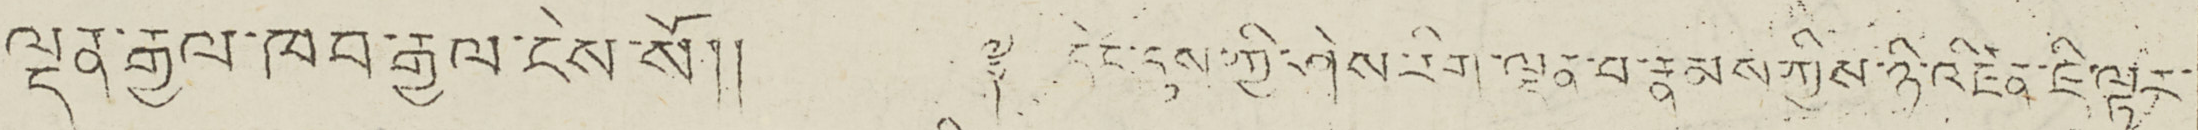ལྡན་རྒྱལ་ཁབ་ངེས་སོ།། ༈ དེང་དུས་ཀྱི་ཤེས་རིག་ལྡན་པ་རྣམས་ཀྱིས་ཉི་འཛིན་ཇི་ལྟར་
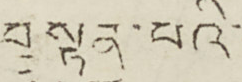བསྟན་པའི་
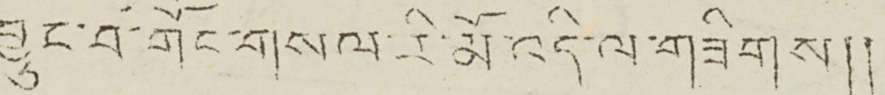བྱུང་བ་གོང་གསལ་རི་མོ་འདི་ལ་གཟིགས།།
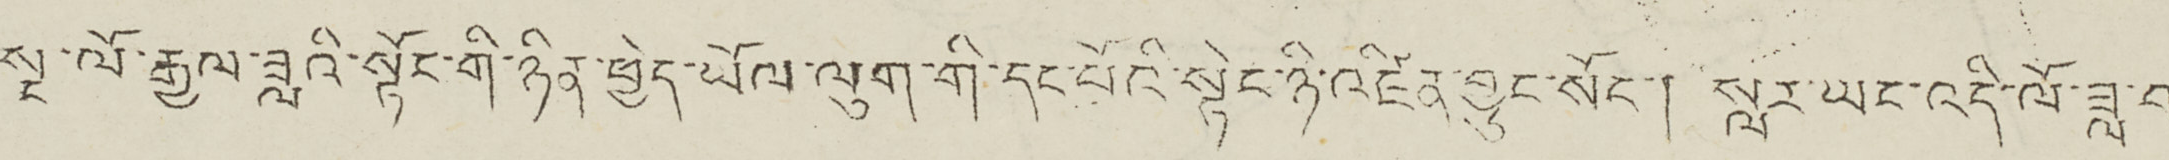སྔ་ལོ་རྒྱལ་ཟླའི་སྟོང་གི་ཉིན་ཕྱེད་ཡོལ་ལུག་གི་དང་པོའི་སྟེང་ཉི་འཛིན་བྱུང་སོང་། སླར་ཡང་འདི་ལོ་ཟླ་བ་
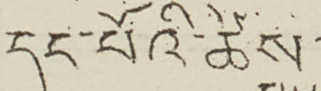དང་པོའི་ཚེས་
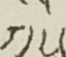༡༥
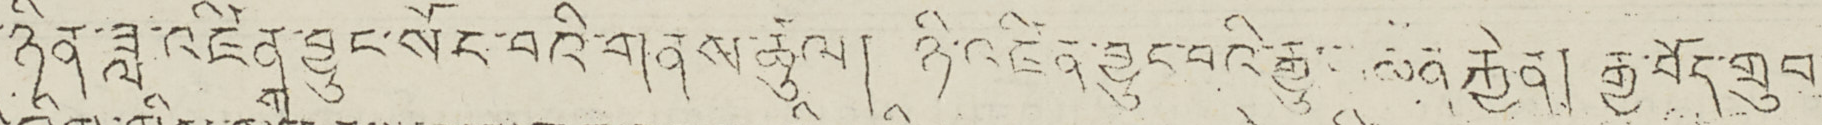ཉིན་ཟླ་འཛིན་བྱུང་སོང་བའི་གནས་ཚུལ། ཉི་འཛིན་བྱུང་བའི་རྒྱུ་མཚན་རྐྱེན། རྒྱ་བོད་གྲུབ་
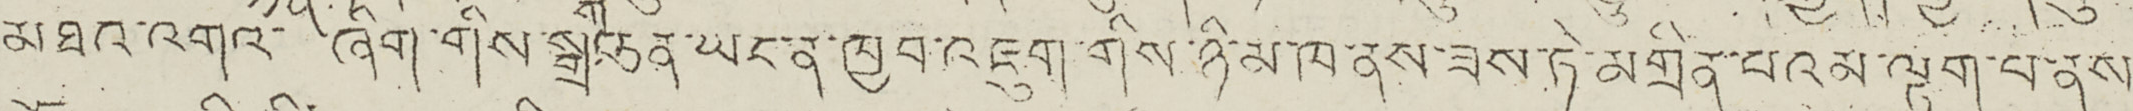མཐའ་འགའ་ ཞིག་གིས་སྒྲག་ཅན་ཡང་ནས་ཁྱབ་འཇུག་གིས་ཉི་མ་ཁ་ནས་ཟས་ཏེ་མགྲིན་པའམ་ལྟག་པ་ནས་
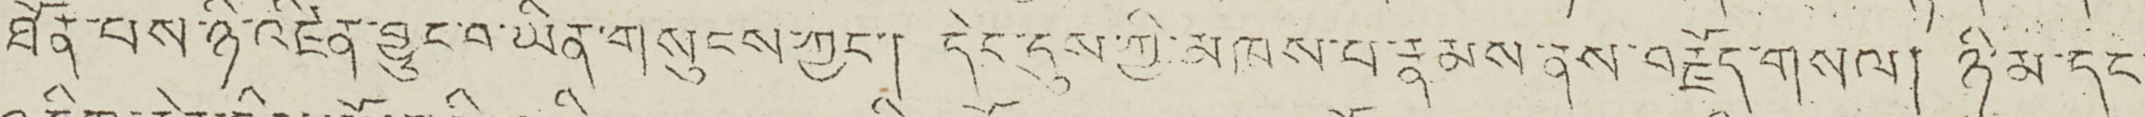ཐོན་པས་ཉི་འཛིན་བྱུང་བ་ཡིན་གསུངས་ཀྱང་། དེང་དུས་ཀྱི་མཁས་པ་རྣམས་ནས་བརྗོད་གསལ། ཉི་མ་དང་
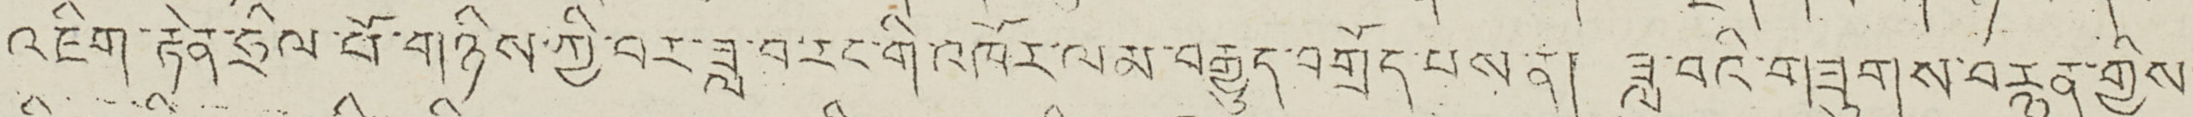འཇིག་རྟེན་ཧྲིལ་པོ་གཉིས་ཀྱི་བར་ཟླ་བ་རང་གི་འཁོར་ལམ་བརྒྱུད་བགྲོད་པས་ན། ཟླ་བའི་གཟུགས་བརྙན་གྱིས་
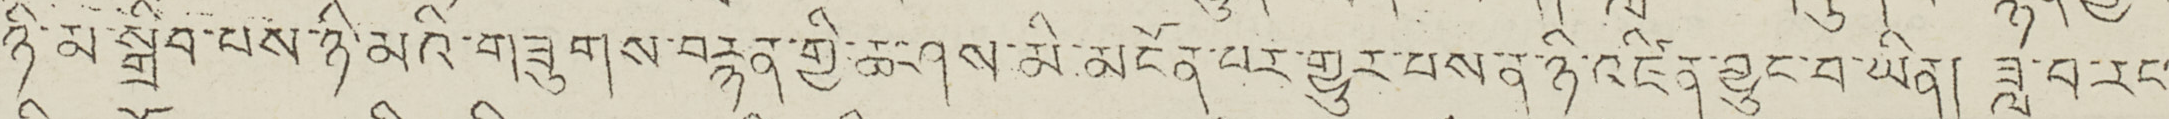ཉི་མ་སྒྲིབ་པས་ཉི་མའི་གཟུགས་བརྙན་གྱི་ཆ་ཤས་མི་མངོན་པར་གྱུར་པས་ན་ཉི་འཛིན་བྱུང་བ་ཡིན། ཟླ་བ་རང་
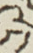༡
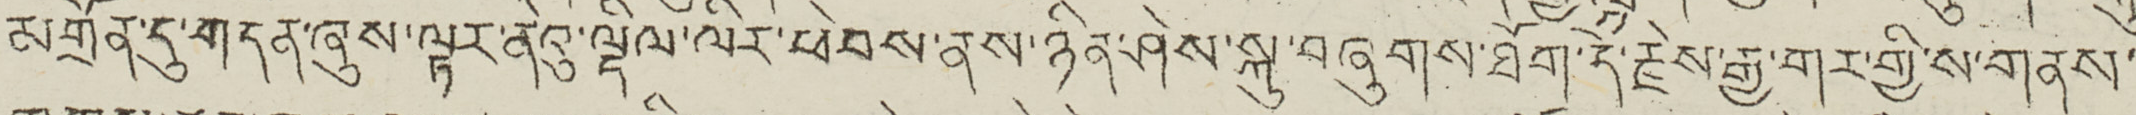མགྲོན་དུ་གདན་ཞུས་ལྟར་ནེའུ་ལྡིལ་ལིར་ཕེབས་ནས་ཉིན་ཤེས་སྐུ་བཞུགས་ཐོག་དེ་རྗེས་རྒྱ་གར་གྱི་ས་གནས་
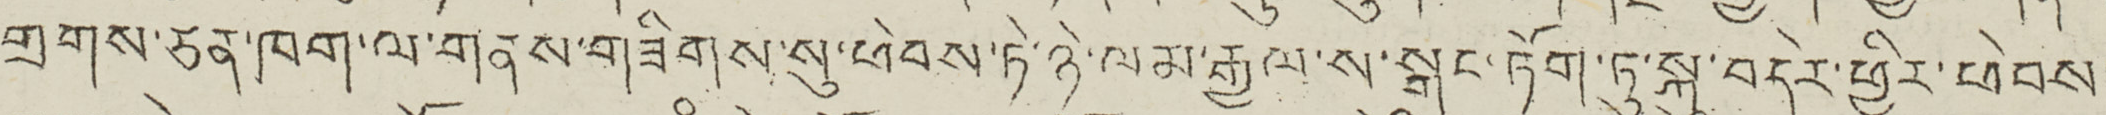གྲགས་ཅན་ཁག་ལ་གནས་གཟིགས་སུ་ཕེབས་ཏེ་ཉི་ལམ་རྒྱལ་ས་སྒང་ཏོག་ཏུ་སྐུ་བདེར་ཕྱིར་ཕེབས་
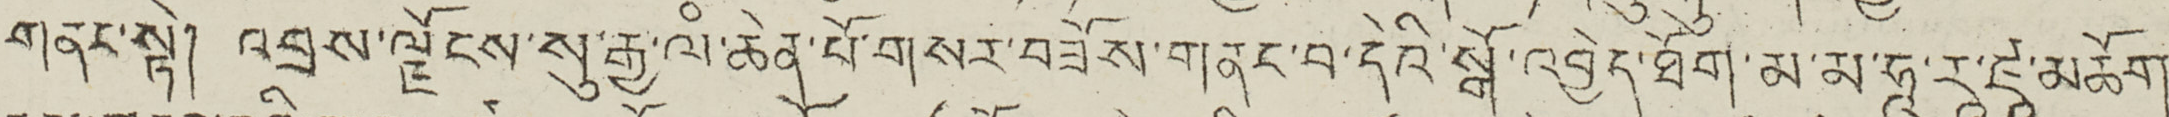གནང་སྟེ། འབྲས་ལྗོངས་སུ་རྒྱ་ལཾ་ཆེན་པོ་གསར་བཟོས་གནང་བ་དེའི་སྒོ་འབྱེད་ཐོག་མ་མ་ཧཱ་རཱ་ཛཱ་མཆོག་
